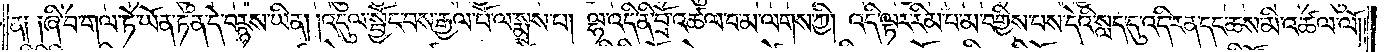ན༑ ༑ཞི་བ་གལ་ཏེ་ཡོན་ཏན་དེ་བརྙས་ཡིན། །འདུལ་སྦྱོང་བས་རྒྱལ་པོ་ལ་སྨྲས་པ། ལྷ་འདི་ནི་བྲོ་འཚལ་བ་མ་ལགས་ཀྱི། འདི་ལྟར་རིམ་པ་མ་བགྱིས་པས་དེའི་སླད་དུ་འདི་རན་དང་ཆས་མི་འཚལ་ལོ༎
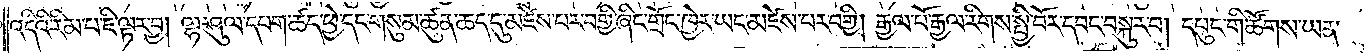འདིའི་རིམ་པ་ཇི་ལྟར་བྱ། ལྷ་ཤུལ་དཔག་ཚད་ཕྱེ་དང་གསུམ་ཚུན་ཆད་དུ་མཛེས་པར་བགྱི་ཞིང་གྲོང་ཁྱེར་ཡང་མཛེས་པར་བགྱི། རྒྱལ་པོ་རྒྱལ་རིགས་སྤྱི་བོར་དབང་བསྐུར་བ། དཔུང་གི་ཚོགས་ཡན་
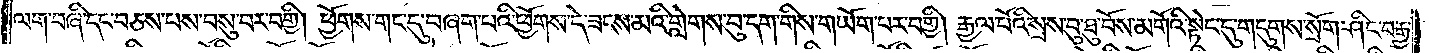ལག་བཞི་དང་བཅས་པས་བསུ་བར་བགྱི། ཕྱོགས་གང་དུ་བཞག་པའི་ཕྱོགས་དེ་ཟངས་མའི་གླེགས་བུ་དག་གིས་གཡོག་པར་བགྱི། རྒྱལ་པོའི་སྲས་བུ་ཐུ་བོས་མགོའི་སྟེང་དུ་གདུགས་སྲོག་ཤིང་བརྒྱ་
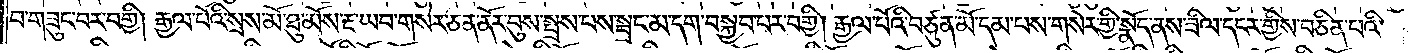བ་གཟུང་བར་བགྱི། རྒྱལ་པོའི་སྲས་མོ་ཐུ་མོས་རྔ་ཡབ་གསེར་ཅན་ནོར་བུས་སྤྲས་པས་སྦྲང་མ་དག་བསྐྱབ་པར་བགྱི། རྒྱལ་པོའི་བཙུན་མོ་དམ་པས་གསེར་གྱི་སྣོད་ནས་ཟིལ་དངར་གྱིས་བཅིན་པའི་
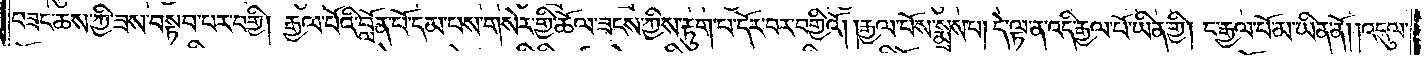བཟང་ཆས་ཀྱི་ཟས་བསྟབ་པར་བགྱི། རྒྱལ་པོའི་བློན་པོ་དམ་པས་གསེར་གྱི་ཆོལ་ཟངས་ཀྱིས་རྟུག་པ་དོར་བར་བགྱིའོ། །རྒྱལ་པོས་སྨྲས་པ། དེ་ལྟ་ན་འདི་རྒྱལ་པོ་ཡིན་གྱི། ང་རྒྱལ་པོ་མ་ཡིན་ནོ། །འདུལ་
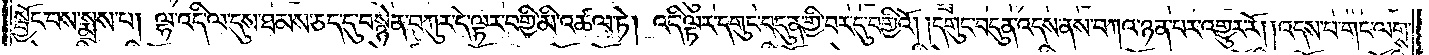སྦྱོང་བས་སྨྲས་པ། ལྷ་འདི་ལ་དུས་ཐམས་ཅད་དུ་བསྙེན་བཀུར་དེ་ལྟར་བགྱི་མི་འཚལ་ཏེ། འདི་ལྟར་དགུང་བདུན་གྱི་བར་དུ་བགྱིའོ། །དགུང་བདུན་འདས་ནས་བཀའ་ཉན་པར་འགྱུར་རོ། །འདས་པ་གང་ལག་
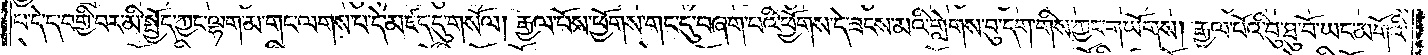པ་དེ་ད་བགྱི་བར་མི་སྤྱོད་ཀྱང་ལྷག་མ་གང་ལགས་པ་དེ་མཛད་དུ་གསོལ། རྒྱལ་པོས་ཕྱོགས་གང་དུ་བཞག་པའི་ཕྱོགས་དེ་ཟངས་མའི་གླེགས་བུ་དག་གིས་ཀྱང་གཡོགས། རྒྱལ་པོའི་བུ་ཐུ་བོ་ཡང་མགོའི་
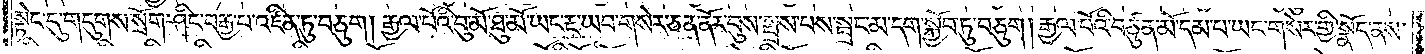སྟེང་དུ་གདུགས་སྲོག་ཤིང་བརྒྱ་པ་འཛིན་ཏུ་བཅུག །རྒྱལ་པོའི་བུ་མོ་ཐུ་མོ་ཡང་རྔ་ཡབ་གསེར་ཅན་ནོར་བུས་སྤྲས་པས་སྦྲང་མ་དག་སྐྱོབ་ཏུ་བཅུག། རྒྱལ་པོའི་བཙུན་མོ་དམ་པ་ཡང་གསེར་གྱི་སྣོད་ནས་
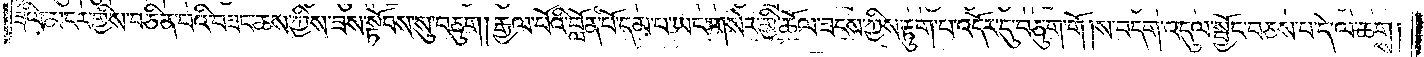ཟིལ་མངར་གྱིས་བཅིན་པའི་བཟང་ཆས་ཀྱིས་ཟས་སྟོབས་སུ་བཅུག། རྒྱལ་པོའི་བློན་པོ་དམ་པ་ཡང་གསེར་གྱི་ཆོལ་ཟངས་ཀྱིས་རྟུག་པ་འདོར་དུ་བཅུག་གོ །ས་བདག་འདུལ་སྦྱོང་བཅས་པ་དེ་ལ་ཆགས།
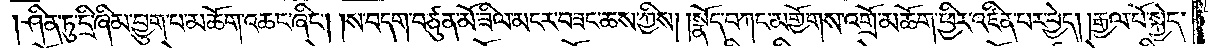ཤིན་ཏུ་དྲི་ཞིམ་བྱུག་པ་མཆོག་འཆང་ཞིང༌། །ས་བདག་བཙུན་མོ་ཟིལ་མངར་བཟང་ཆས་ཀྱིས། །སྣོད་བཀང་མགྱོགས་འགྲོ་མཆོག་ཕྱིར་འཛིན་པར་བྱེད། །རྒྱལ་པོ་སྐྱེད་
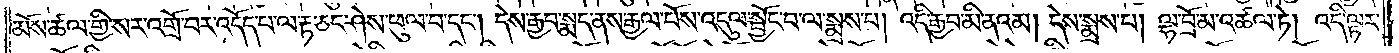མོས་ཚལ་གྱི་སར་འགྲོ་བར་འདོད་པ་ལ་རྟ་ཅང་ཤེས་ཕུལ་བ་དང༌། དེས་རྒྱབ་སྨད་ནས་རྒྱལ་པོས་འདུལ་སྦྱོང་བ་ལ་སྨྲས་པ། འདི་རྒྱབ་མི་ནའམ། དེས་སྨྲས་པ། ལྷ་བྲོ་མ་འཚལ་ཏེ། འདི་ལྟར་
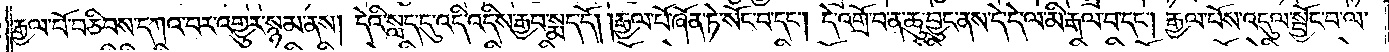རྒྱལ་པོ་བཅིབས་དཀའ་བར་འགྱུར་སྙམ་ནས། དེའི་སླད་དུ་འདི་འདིས་རྒྱབ་སྨད་དོ། །རྒྱལ་པོ་ཞོན་ཏེ་སོང་བ་དང༌། དེ་འགྲོ་བ་ན་ཆུ་བྱུང་ནས་དེ་དེ་ལ་མི་རྒལ་བ་དང༌། རྒྱལ་པོས་འདུལ་སྦྱོང་བ་ལ་
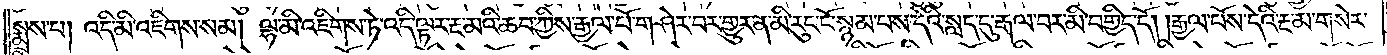སྨྲས་པ། འདི་མི་འཇིགས་སམ། ལྷ་མི་འཇིགས་ཏེ་འདི་ལྟར་རྔ་མའི་ཆབ་ཀྱིས་རྒྱལ་པོ་གཤེར་བར་གྱུར་ན་མི་རུང་ངོ་སྙམ་པས་དེའི་སླད་དུ་རྒལ་བར་མི་བགྱིད་དོ། །རྒྱལ་པོས་དེའི་རྔ་མ་གསེར་
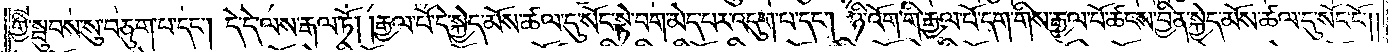གྱི་སྦུབས་སུ་བཅུག་པ་དང༌། དེ་དེ་ལས་རྒལ་ཏོ། །རྒྱལ་པོ་དེ་སྐྱེད་མོས་ཚལ་དུ་སོང་སྟེ་བག་མེད་པར་འདུག་པ་དང༌། ཉི་འོག་གི་རྒྱལ་པོ་དག་གིས་རྒྱལ་པོ་ཚངས་བྱིན་སྐྱེད་མོས་ཚལ་དུ་སོང་ངོ༌༎
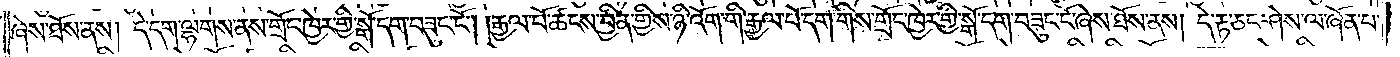ཞེས་ཐོས་ནས། དེ་དག་ལྷགས་ནས་གྲོང་ཁྱེར་གྱི་སྒོ་དག་བཟུང་ངོ༌། །རྒྱལ་པོ་ཚངས་བྱིན་གྱིས་ཉི་འོག་གི་རྒྱལ་པོ་དག་གིས་གྲོང་ཁྱེར་གྱི་སྒོ་དག་བཟུང་ངོ་ཞེས་ཐོས་ནས། དེ་རྟ་ཅང་ཤེས་ལ་ཞོན་པ་
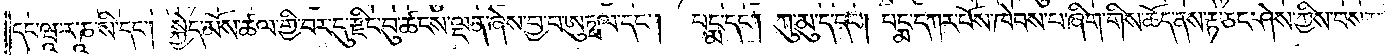དང་ཝཱ་ར་ཎཱ་སི་དང༌། སྐྱེད་མོས་ཚལ་གྱི་བར་དུ་རྫིང་བུ་ཚངས་ལྡན་ཞེས་བྱ་བ་ཨུཏྤལ་དང༌། པདྨ་དང༌། ཀུ་མུ་ད་དང༌། པདྨ་དཀར་པོས་ཁེབས་པ་ཞིག་གིས་ཆོད་ནས་རྟ་ཅང་ཤེས་ཀྱིས་བསམས་
